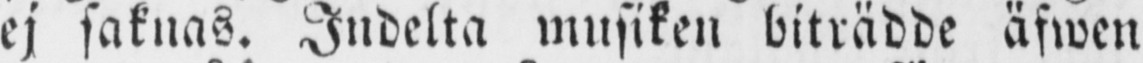ej saknas. Indelta musiken biträdde äfwen
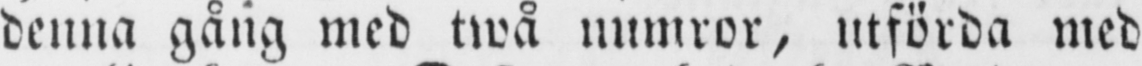denna gång med twå numror, utförda med
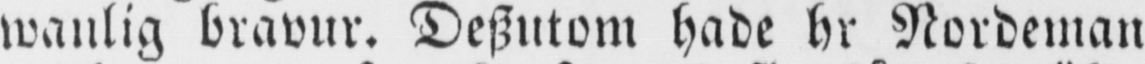wanlig bravur. Deszutom hade hr Nordeman
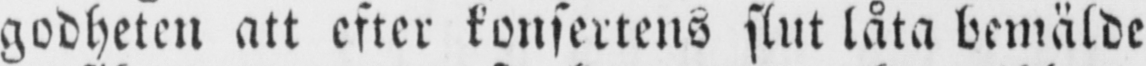godheten att efter konsertens slut låta bemälde
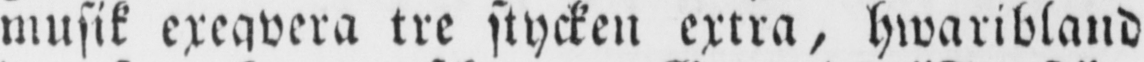musik exeqvera tre stycken extra, hwaribland
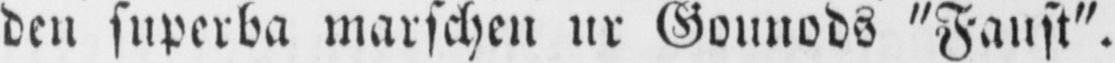den superba marschen ur Gounods "Faust".
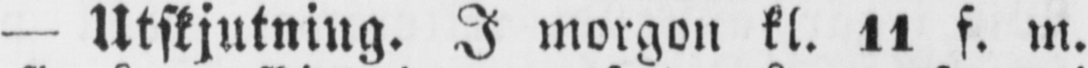— Utskjutning. I morgon kl. 11 f. m.
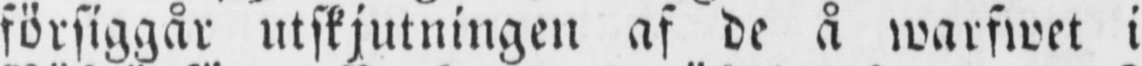försiggår utskjutningen af de å warfwet i
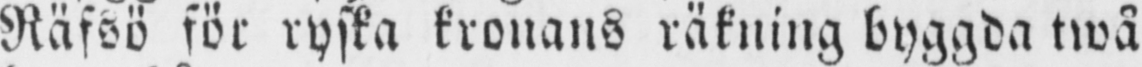Räfsö för ryska kronans räkning byggda twå
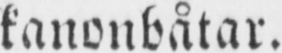kanonbåtar.
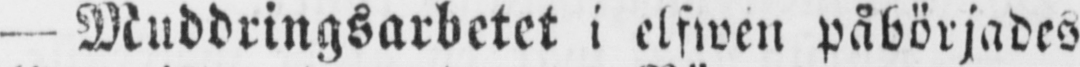- Muddringsarbetet i elfwen påbörjades
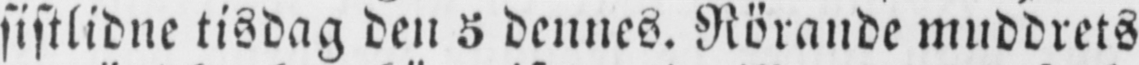sistlidne tisdag den 5 dennes. Rörande muddrets
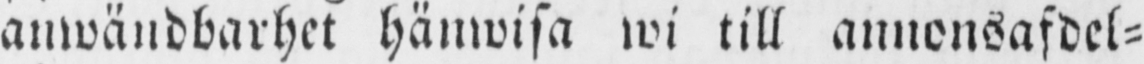anwändbarhet hänwisa wi till annonsafdel-
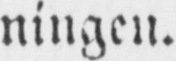ningen.
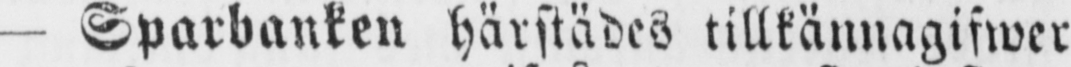— Sparbanken härstädes tillkännagifwer
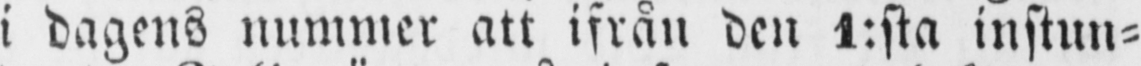i dagens nummer att ifrån den 1:sta instun-
